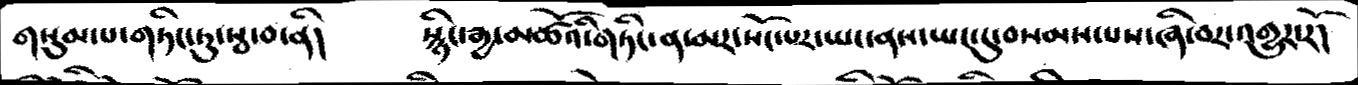གསུམ་པ་གཏིང་ཏུ་སྦ་བ་ནི།   སྙིང་རྒྱ་མཚོའི་གཏིང་ན་མར་སོང་པར་ཡང་ནས་ཡང་དུ་བསམས་པས་ཞི་བར་འགྱུར་རོ།
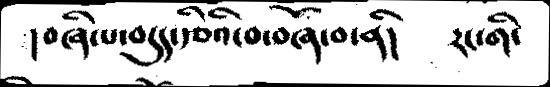།བཞི་པ་བདུད་རྩིའི་བ་བཞོ་བ་ནི།  རང་གི་
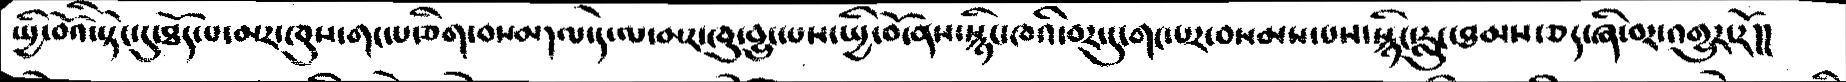སྤྱི་བོའི་སྟེང་དུ་ཐོད་པ་མར་ཁུས་གང་པ་ཅིག་བསམ།ལ་དེ་ལ་མར་ཁུ་བྱུང་བས་སྤྱི་བོ་ནས་སྙིང་ཁའི་བར་དུ་གང་པར་བསམས་པས་སྙིང་རླུང་ཐམས་ཅད་ཞི་་བར་འགྱུར་རོ།།
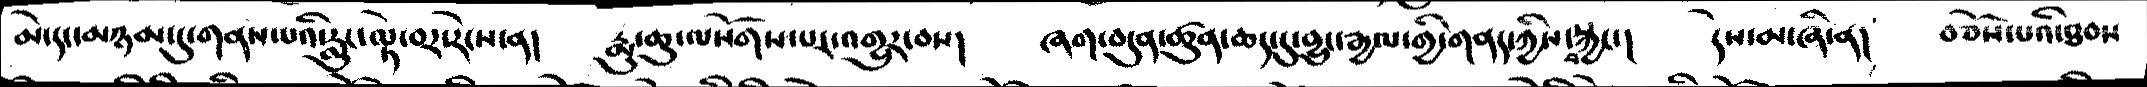མེ་དང་མཉམ་དུ་གནས་པའི་རླུང་ལྟེ་བར་རེངས་ན།   རྨུ་ཆུ་ལསོགས་པར་འགྱུར་བས།   ཞག་བདུན་ཚུན་ཆད་དུ་བྱུང་རྒྱལ་གྱི་གནད་ཀྱིས་བསྐྱང་།   དེས་མ་ཞི་ན།   བཅོས་པའི་ཐབས
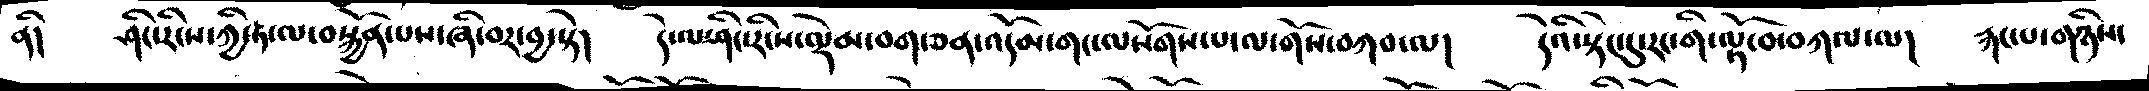ནི།   ཤིང་རིངས་ཀྱི་རྟ་ལ་བསྐྱོན་པས་ཞི་བར་བྱ་སྟེ།   དེ་ལ་ཤིང་རིངས་ལྡེམ་བག་ཅན་འདོམ་གང་ལསོགས་པ་ལ་གོས་བཀབ་ལ།   དེའི་སྟེང་དུ་རང་གི་ལྟོ་བ་བཀལ་ལ།   རྐང་པ་གཉིས་
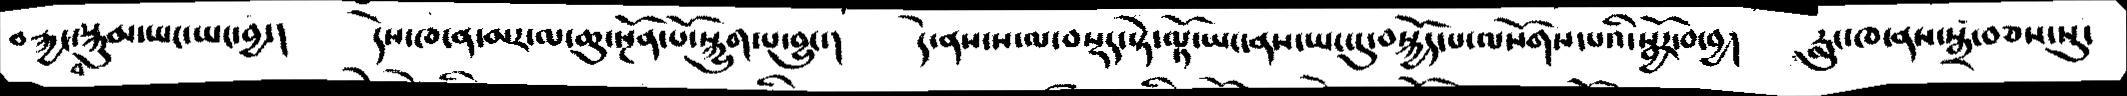བརྐྱང་བསྐུམ་ཡང་ཡང་བྱ་།   དེས་ཁ་ན་མར་ལ་ཆུ་སྔོན་པོ་སྐྱུག་པ་བྱུང་།   དེ་ནས་ས་ལ་བསྡད་སྟེ་ལྟོ་ཡང་ནས་ཡང་དུ་བསྐྱོད་པ་ལསོགས་པའི་སྦྱོར་བ་བྱ།   རླུང་ཁ་ནས་སྒྲ་བཅས་སུ་
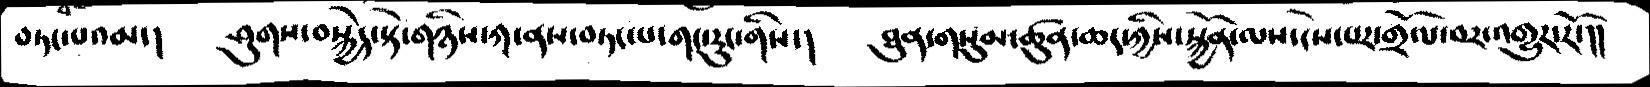བཏང་པའམ་།   ཤུགས་བསྐྱེད་སྟེ་གཉིས་ཀ་ནས་བཏང་པ་གང་རུང་གིས་།   ཐུན་གསུམ་ཚུན་ཆད་ཀྱིས་སྐྱོན་ལས་ངེས་པར་གྲོལ་བར་འགྱུར་རོ་།།
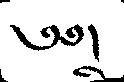༄༅།
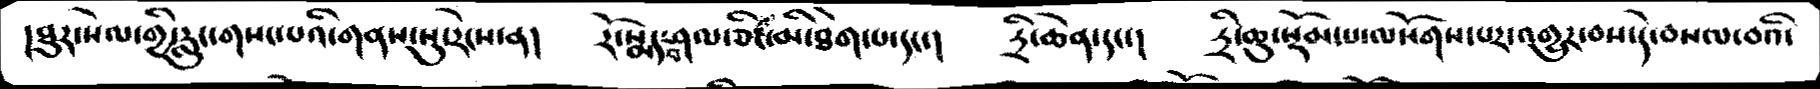།ཐུར་སེལ་གྱི་རླུང་གསང་པའི་གནས་སུ་རེངས་ན།   རོ་སྨད་བཤལ་ཅིང་མི་ཐེག་པ་དང་།  དྲི་ཆེན་དང་།   དྲི་ཆུ་སྡོམ་པ་ལསོགས་པར་འགྱུར་བས་དེ་བསལ་བའི་
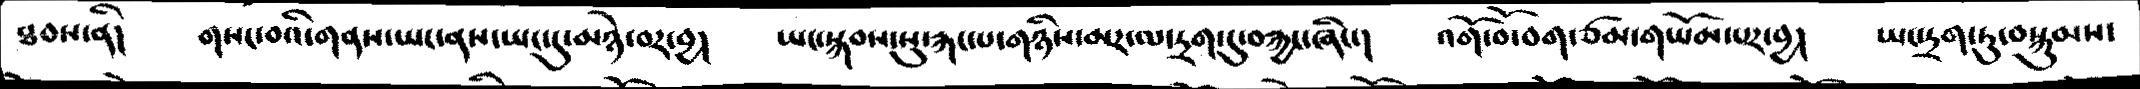ཐབས་ནི།  གསང་བའི་གནས་ཡང་ནས་ཡང་དུ་མཉེ་བར་བྱ།  ཡང་སྐབས་སུ་རྐང་པ་གཉིས་མར་ལ་དྲག་དུ་བརྐྱང་ཞིང་།   འགོ་བོ་བག་ཙམ་གཡོམ་པར་བྱ།  ཡང་དྲག་ཏུ་བསྐུམས་
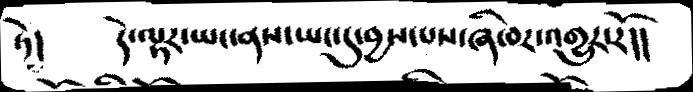ཏེ།   དེ་ལྟར་ཡང་ནས་ཡང་དུ་བྱས་པས་ཞི་བར་འགྱུར་རོ།།
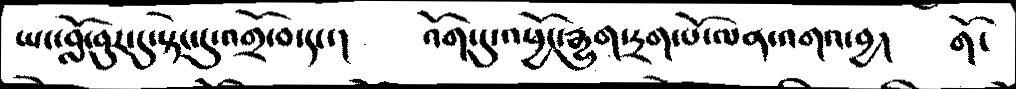ཡང་བློ་བུར་དུ་སྟེང་དུ་འགྲོ་བ་དང་།   འོག་དུ་འཕྱོང་རྒྱུག་དྲག་པོ་ལན་འགའ་བྱ།   གོ་
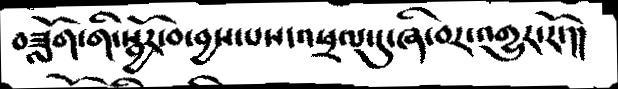བཟློག་གི་སྦྱོར་བ་བྱས་པས་འཕྲལ་དུ་ཞི་བར་འགྱུར་རོ་།།
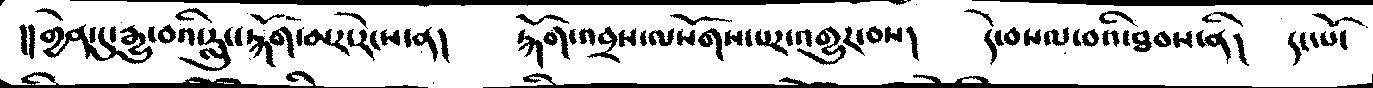།།གྱེན་དུ་རྒྱུ་བའི་རླུང་རྐོག་མར་རེངས་ན།   རྐོག་འབྲས་ལསོགས་པར་འགྱུར་བས།   དེ་བསལ་བའི་ཐབས་ནི།   དང་པོ་
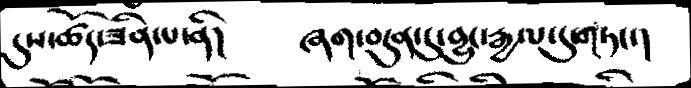དུས་ཚོད་ཟིན་པ་ནི།   ཞག་བདུན་དུ་བྱུང་རྒྱལ་དུ་གཏང་།
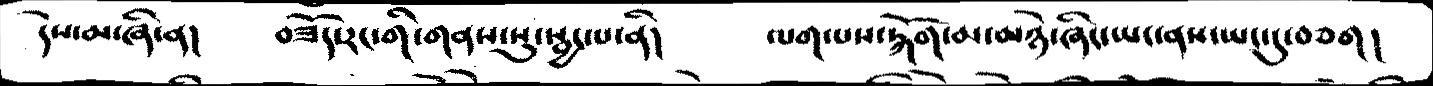དེས་མ་ཞི་ན།  བཟོད་རང་གི་གནས་སུ་སྦྱང་པ་ནི།   ལག་པས་རྐོག་མ་མཉེ་ཞིང་ཡང་ནས་ཡང་དུ་བཅག།
